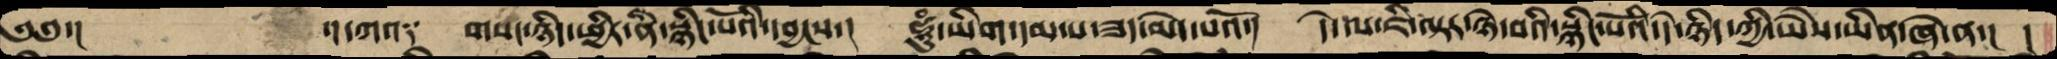༄༅་།    ་།དཀའ༑   གསང་ཉིད་ཕྱིར་ནི་སྙིང་པོའི་དབྱངས་།  ཧཱུཾ་ཡིག་དམ་པ་ཟད་མེད་པའོ་།  དེ་ལ་ཇི་ལྟར་ཉེ་བའི་སྙིང་པོའི་དེ་ཉིད་ཀྱི་ཡཻས་ཡིན་ཞེ་ན་།  །
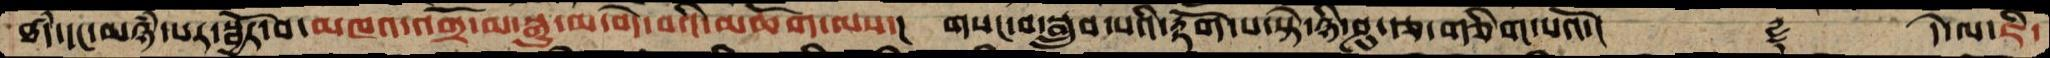ཐདཾ་དང་མཉཾ་པར་སྦྱོར་བ་མཁའ་འགྲོ་མ་སྒྱུ་མ་བདེ་བའི་མཆོག་ལས་།  གསང་བ་སྒྲུབ་པའི་རྟོག་པ་སྟེ་ཉི་ཤུ་རྩ་གཅིག་པའོ་།    ࿑     དེ་ལ་ཇི་
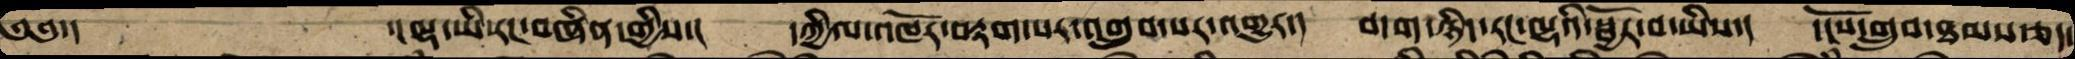༄༅་།    ་།ལྷ་ཡི་རང་བཞིན་གྱིས་།  དཀྱིལ་འཁོར་བརྟག་པར་འགྲུབ་པར་འགྱུར་།  བདག་ཉིད་རང་ལྷའི་སྦྱོར་བ་ཡིས་།  དངོས་གྲུབ་ཐམས་ཅད་
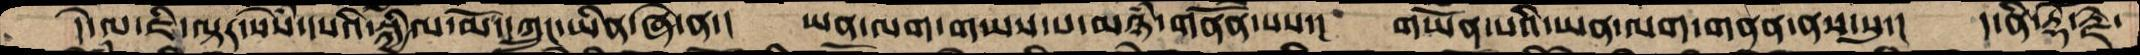དེ་ལ་ཇི་ལྟར་སེཾས་དཔའི་སྐྱིལ་མོ་ཀྲུང་ཡིན་ཞེ་ན་།  ཡན་ལག་གཡས་པ་མཉཾ་གནོན་པས་།  གཡོན་པའི་ཡན་ལག་གནན་ནས་སུ་།  ད་ནི་རྡོ་རྗེ་
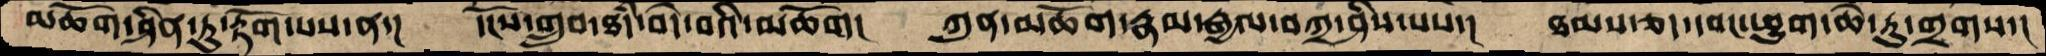མཆོག་ཤིན་ཏུ་རྟོག་པས་ན་།  དངོས་གྲུབ་ཐདཾ་བདེ་བའི་མཆོག།  ཀུན་མཆོག་རྣམ་རྒྱལ་བཀྲ་ཤིས་པས་།  ཐམས་ཅད་དབང་ཕྱུག་ཆེ་རུ་གྲགས་།
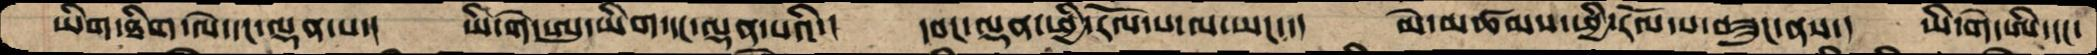ཡིག་ཐིག་ལེ་དང་ལྡན་པ་།  ཡི་གེ་ཨུ་ཡིག་དང་ལྡན་པའི་།  དབང་ལྡན་ཕྱི་རོལ་པ་ལ་ཡང་་།  མེ་མཚམས་ཕྱི་རོལ་པ་བཟུང་ནས་།  ཡི་གེ་ཨི་དང་
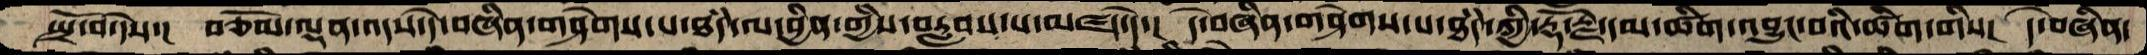སྤྲོ་བ་དེས་།  བཅོམ་ལྡན་འདས་དེ་བཞིན་གཤེགས་པ་ཐཾད་ལ་བྱིན་གྱིས་བརླབས་པ་མཛད་དེ་།  དེ་བཞིན་གཤེགས་པ་ཐཾད་ཀྱི་རྡོ་རྗེ་དམ་ཚིག་འབྱུང་བའི་ཚིག་གིས་།  དེ་བཞིན་
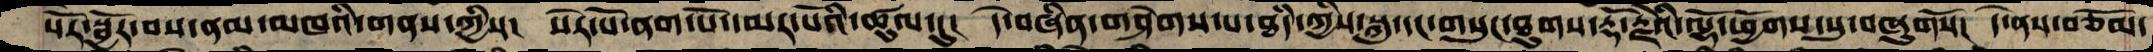སོར་སྦྱོར་བས་ནམ་མཁའི་གནས་ཀྱིས།  སེར་པོ་ནག་པོ་དམར་པོའི་ཚུལ་དུ།  དེ་བཞིན་གཤེགས་པ་ཐཾད་ཀྱིས་སྐུ་དང་གསུང་ཐུགས་རྡོ་རྗེའི་ལྷོ་ཕྱོགས་སུ་བཞུགསོ།  དེ་ནས་བཅོམ་
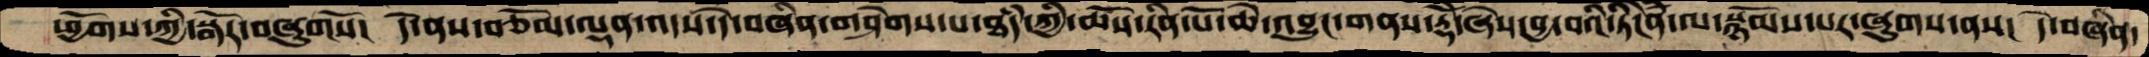ཕྱོགས་ཀྱི་སྒོར་བཞུགསོ།  དེ་ནས་བཅོམ་ལྡན་འདས་དེ་བཞིན་གཤེགས་པ་ཐཾད་ཀྱི་ཆོས་རིན་པ་ཆེ་འབྱུང་གནས་རྡོེ་ཞེས་བྱ་བའི་ཏིངེཛིན་ལ་སྙོམས་པར་ཞུགས་ནས་།  དེ་བཞིན་
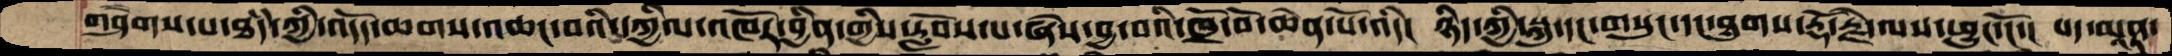གཤེགས་པ་ཐཾད་ཀྱི་འདོད་ཆགས་འཆང་བའི་དཀྱིལ་འཁོར་བྱིན་གྱིས་རློབས་པ་ཞེས་བྱ་བའི་ཁྲོ་བོ་ཆེན་པོ་འདི།  ཉིད་ཀྱི་སྐུ་དང་གསུང་དང་ཐུགས་རྡོ་རྗེ་ལས་ཕྱུང་ངོ་།  པད་མཱནྟ་
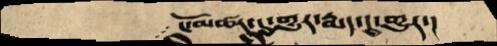ངོ་མཚར་དུ་གྱུར་རྨད་དུ་གྱུར་།
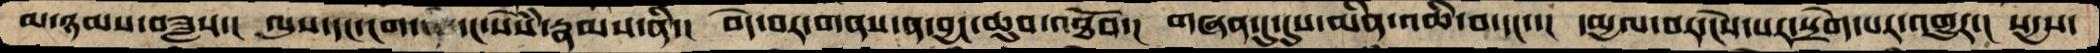མ་ཉམས་བཟླས་།  ལུས་དང་ངག་དང་སེཾས་རྣམས་ནི་།  བདེ་བར་གནས་ན་བྱང་ཆུབ་འཐོབ་།  གཞན་དུ་དུས་མིན་འཆི་བ་དང་་།  དམྱལ་བར་ངེས་པར་སྲེག་པར་འགྱུར་།  སདྱས་
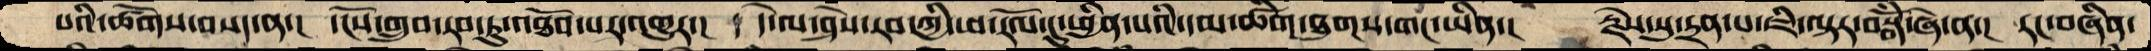པའི་ཚོགས་བསད་ན་།  དངོས་གྲུབ་རབ་ཏུ་འཐོབ་པར་འགྱུར་། ࿑ དེ་ལ་ཤེས་རབ་ཀྱི་ཕ་རོལ་དུ་ཕྱིན་པའི་དམ་ཚིག་ཐུགས་གང་ཡིན་།  རྗེས་སུ་དྲན་པ་ཇི་ལྟར་བསྒོཾ་ཞེ་ན་།  རང་བཞིན་
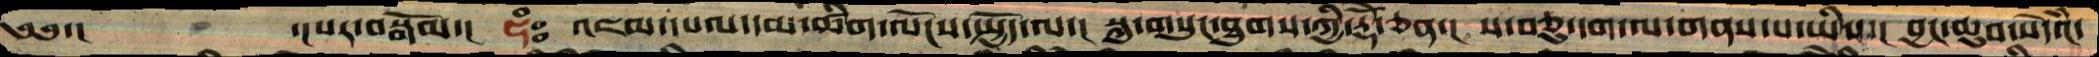༄༅་།   ་།པར་བསྒོམ་།  ཧཾཿ  འཇམ་དཔལ་དམ་ཚིག་ལོངས་སྤྱོད་ལ་།  སྐུ་གསུང་ཐུགས་ཀྱི་རྡོེ་ཅན་།  ས་བཅུ་དག་ལ་གནས་པ་ཡིས་།  བྱང་ཆུབ་སེདཾའ་
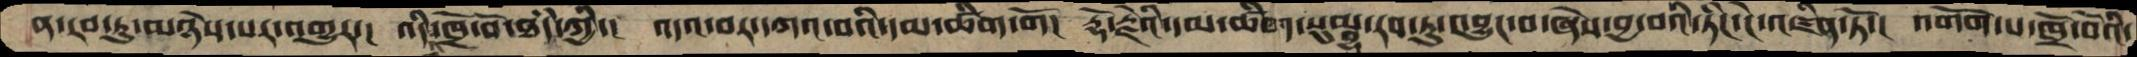ན་རབ་ཏུ་མཉེས་པར་འགྱུར་། འདི་དང་ཁྲོ་བོ་ཐཾད་ཀྱི་། འདའ་བར་དཀའ་བའི་དམ་ཚིག་གོ། རྡོ་རྗེའི་དམ་ཚིག་སུམྦྷ་རབ་ཏུ་འབྱུང་བ་ཞེས་བྱ་བའི་ཏིང་ངེ་འཛིན་ཏོ་། འགོག་པ་ཁྲོ་བོའི་
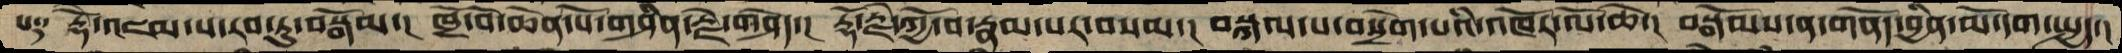པ༑ རྡོེ་འཇམ་པ་རབ་ཏུ་བསྒོམ་། ཁྲོ་བོ་ཆེན་པོ་གཤིན་རྗེ་གཤེེད་། རྡོ་རྗེ་ཀྱོ་བ་རྣམ་པར་བསམ་། བསྐལ་པ་བསྲེག་པའི་འཁོར་ལོ་ཆེ་། བསྒོམ་ན་གནོད་བྱིན་མོ་དག་སྤྱད་།
